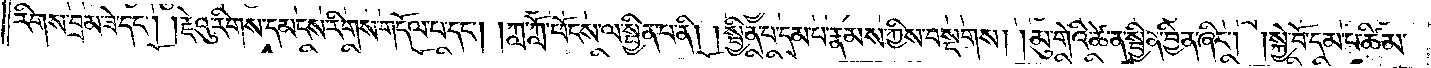རིགས་བྲམ་ཟེ་དང༌། །རྗེའུ་རིགས་དམངས་རིགས་གདོལ་པ་དང༌། །ཀླ་ཀློ་ཕོངས་ལ་སྦྱིན་པ་ནི། །སྦྱིན་པ་དམ་པ་རྣམས་ཀྱིས་བསྔགས། །མུ་གེའི་ཚེ་ན་སྦྱིན་བྱིན་ཞིང༌། །སྐྱེ་བོ་དམ་པ་ཚིམ་
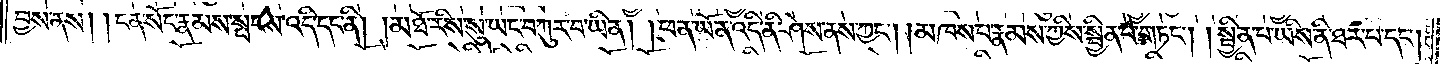བྱས་ནས། །ངན་སོང་རྣམས་སྤངས་འདི་དང་ནི། །མཐོ་རིས་སུ་ཡང་བཀུར་བ་ཡིན། །ཕན་ཡོན་འདི་ནི་ཤེས་ནས་ཀྱང༌། །མཁས་པ་རྣམས་ཀྱིས་སྦྱིན་པ་གཏང༌། །སྦྱིན་པ་ཡིས་ནི་ཐར་པ་དང༌།
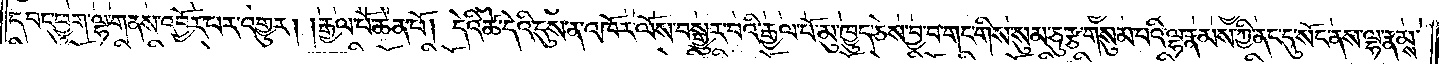དབང་ཕྱུག་ལྷ་གནས་འབྱོར་པར་འགྱུར། །རྒྱལ་པོ་ཆེན་པོ། དེའི་ཚེ་དེའི་དུས་ན་འཁོར་ལོས་བསྒྱུར་བའི་རྒྱལ་པོ་མུ་ཁྱུད་ཅེས་བྱ་བ་གང་གིས་སུམ་ཅུ་རྩ་གསུམ་པའི་ལྷ་རྣམས་ཀྱི་ནང་དུ་སོང་ནས་ལྷ་རྣམས་
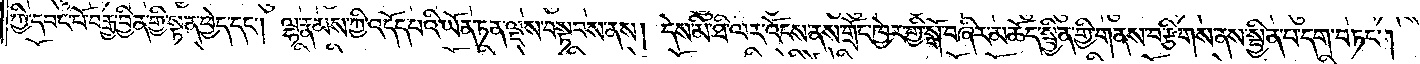ཀྱི་དབང་པོ་བརྒྱ་བྱིན་གྱི་སྟན་ཕྱེད་དང༌། ལྷ་རྣམས་ཀྱི་འདོད་པའི་ཡོན་ཏན་ལྔས་བསྟབས་ནས། དེས་མི་ཐི་ལར་འོངས་ནས་གྲོང་ཁྱེར་གྱི་སྒོ་བཞིར་མཆོད་སྦྱིན་གྱི་གནས་བརྩིགས་ནས་སྦྱིན་པ་དག་བཏང༌།
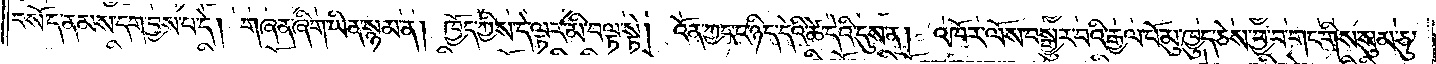བསོད་ནམས་དག་བྱས་པ་དེ། གཞན་ཞིག་ཡིན་སྙམ་ན། ཁྱོད་ཀྱིས་དེ་ལྟར་མི་བལྟ་སྟེ། འོན་ཀྱང་ང་ཉིད་དེའི་ཚེ་དེའི་དུས་ན། འཁོར་ལོས་བསྒྱུར་བའི་རྒྱལ་པོ་མུ་ཁྱུད་ཅེས་བྱ་བ་གང་གིས་སུམ་ཅུ་
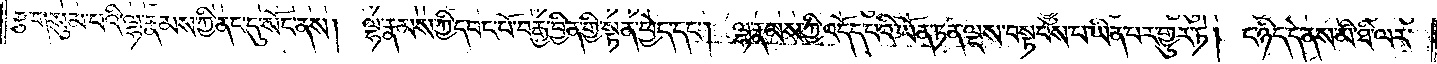རྩ་གསུམ་པའི་ལྷ་རྣམས་ཀྱི་ནང་དུ་སོང་ནས། ལྷ་རྣམས་ཀྱི་དབང་པོ་བརྒྱ་བྱིན་གྱི་སྟན་ཕྱེད་དང༌། ལྷ་རྣམས་ཀྱི་འདོད་པའི་ཡོན་ཏན་ལྔས་བསྟབས་པ་ཡིན་པར་གྱུར་ཏེ། ང་ཉིད་དེ་ནས་མི་ཐི་ལར་
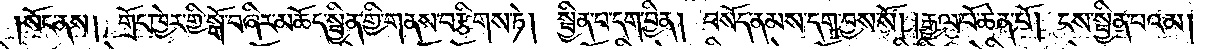།སོང་ནས། གྲོང་ཁྱེར་གྱི་སྒོ་བཞིར་མཆོད་སྦྱིན་གྱི་གནས་བརྩིགས་ཏེ། སྦྱིན་པ་དག་བྱིན། བསོད་ནམས་དག་བྱས་སོ། །རྒྱལ་པོ་ཆེན་པོ། ངས་སྦྱིན་པའམ།
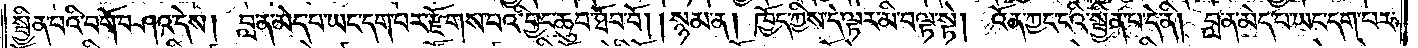སྦྱིན་པའི་བགོ་བཤའ་དེས། བླ་ན་མེད་པ་ཡང་དག་པར་རྫོགས་པའི་བྱང་ཆུབ་ཐོབ་བོ། །སྙམ་ན། ཁྱོད་ཀྱིས་དེ་ལྟར་མི་བལྟ་སྟེ། འོན་ཀྱང་ངའི་སྦྱིན་པ་དེ་ནི། བླ་ན་མེད་པ་ཡང་དག་པར་
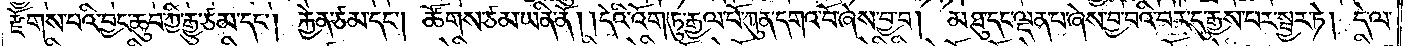རྫོགས་པའི་བྱང་ཆུབ་ཀྱི་རྒྱུ་ཙམ་དང༌། རྐྱེན་ཙམ་དང༌། ཚོགས་ཙམ་ཡིན་ནོ།    །དེའི་འོག་ཏུ་རྒྱལ་པོ་ཀུན་དགའ་བོ་ཞེས་བྱ་བ། མཐུ་དང་ལྡན་པ་ཞེས་བྱ་བའི་བར་དུ་རྒྱས་པར་སྦྱར་ཏེ། དེ་ལ་
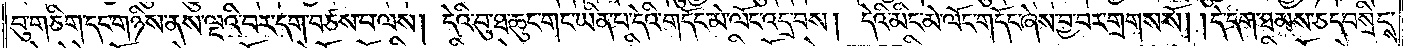བུ་གཅིག་དང་གཉིས་ནས་ལྔའི་བར་དག་བཙས་པ་ལས། དེའི་བུ་ཐ་ཆུང་གང་ཡིན་པ་དེའི་གདོང་མེ་ལོང་འདྲ་བས། དེའི་མིང་མེ་ལོང་གདོང་ཞེས་བྱ་བར་གྲགས་སོ། །དེ་དག་ཐམས་ཅད་བསྲིངས་
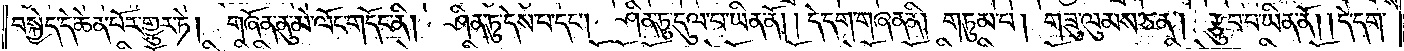བསྐྱེད་དེ་ཆེན་པོར་གྱུར་ཏེ། གཞོན་ནུ་མེ་ལོང་གདོང་ནི། ཤིན་ཏུ་དེས་པ་དང༌། ཤིན་ཏུ་དུལ་བ་ཡིན་ནོ། །དེ་དག་གཞན་ནི། གཏུམ་པ། གཟུ་ལུམས་ཅན། རྩུབ་པ་ཡིན་ནོ། །དེ་དག་
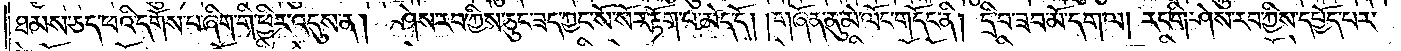ཐམས་ཅད་ཕའི་དགོས་པ་ཞིག་གི་ཕྱིར་འདུས་ན། ཤེས་རབ་ཀྱིས་ཅུང་ཟད་ཀྱང་སོ་སོར་རྟོག་པ་མེད་དོ། །གཞོན་ནུ་མེ་ལོང་གདོང་ནི། །དྲི་བ་ཟབ་མོ་དག་ལ། རང་གི་ཤེས་རབ་ཀྱིས་དཔྱོད་པར་
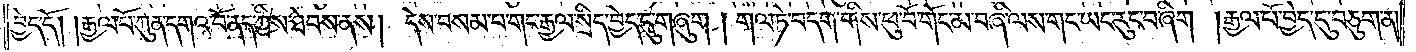བྱེད་དོ། །རྒྱལ་པོ་ཀུན་དགའ་བོ་ནད་ཀྱིས་ཐེབས་ནས། དེས་བསམ་པ་གང་རྒྱལ་སྲིད་བྱེད་དུ་གཞུག །གལ་ཏེ་བདག་གིས་ཕུ་བོ་གོང་མ་བཞི་ལས་གང་ཡང་རུང་བ་ཞིག །རྒྱལ་པོ་བྱེད་དུ་བཅུག་ན།
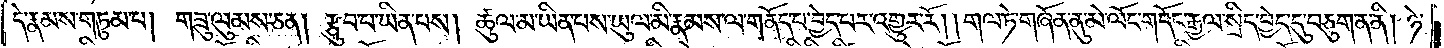དེ་རྣམས་གཏུམ་པ། གཟུ་ལུམས་ཅན། རྩུབ་པ་ཡིན་པས། ཚུལ་མ་ཡིན་པས་ཡུལ་མི་རྣམས་ལ་གནོད་པ་བྱེད་པར་འགྱུར་རོ། །གལ་ཏེ་གཞོན་ནུ་མེ་ལོང་གདོང་རྒྱལ་སྲིད་བྱེད་དུ་བཅུག་ན་ནི། ཉེ་
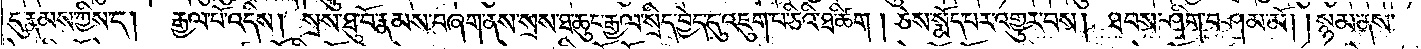དུ་རྣམས་ཀྱིས་ད།  རྒྱལ་པོ་འདིས། སྲས་ཐུ་བོ་རྣམས་བཞག་ནས་སྲས་ཐ་ཆུང་རྒྱལ་སྲིད་བྱེད་དུ་འཇུག་པ་ཅིའི་ཐ་ཚིག །ཅེས་སྨོད་པར་འགྱུར་བས། ཐབས་ཤིག་བཤམ་མོ། །སྙམ་ནས་
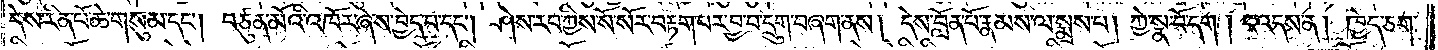དེས་རིན་པོ་ཆེ་གསུམ་དང༌། བཙུན་མོའི་འཁོར་ཞེས་བྱེད་པ་དང༌། ཤེས་རབ་ཀྱིས་སོ་སོར་བརྟག་པར་བྱ་བ་དྲུག་བཞག་ནས། དེས་བློན་པོ་རྣམས་ལ་སྨྲས་པ། ཀྱེ་སྣ་བོ་དག །ང་འདས་ན། ཁྱེད་ཅག་
